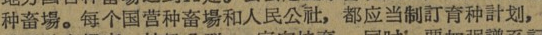种畜場。每个国营种畜場和人民公社，都应当制定育种計划，
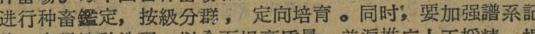进行种畜鑑定，按級分群，定向培育。同时，要加强譜系記
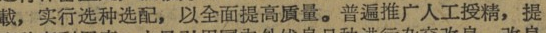載，实行选种选配，以全面提高貭量。普遍推广人工授精，提
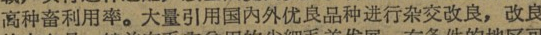高种畜利用率。大量引用国内外优良品种进行杂交改良，改良
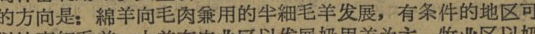的方向是：綿羊向毛肉兼用的半細毛羊发展，有条件的地区可
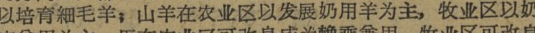以培育細毛羊；山羊在农业区以发展奶用羊为主，牧业区以奶
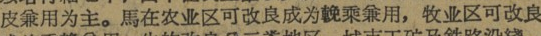皮兼用为主。馬在农业区可改良成为輓乘兼用，牧业区可改良
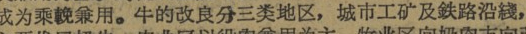成为乘輓兼用。牛的改良分三类地区，城市工矿及鉄路沿綫，
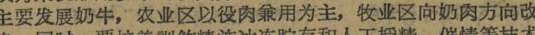主要发展奶牛，农业区以役肉兼用为主，牧业区向奶肉方向改
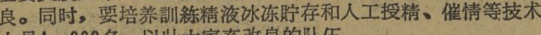良。同时，要培养訓练精液冰冻貯存和人工授精、催情等技术
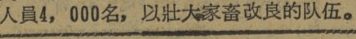人員4，000名，以壯大家畜改良的队伍。
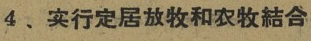4、实行定居放牧和农牧結合
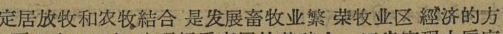定居放牧和农牧結合是发展畜牧业繁 荣牧业区經济的方
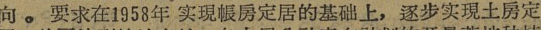向。要求在1958年 实現帳房定居的基础上，逐步实現土房定
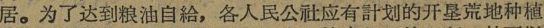居。为了达到粮油自給，各人民公社应有計划的开垦荒地种植
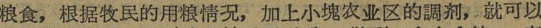粮食，根据牧民的用粮情况，加上小塊农业区的調剂，就可以
